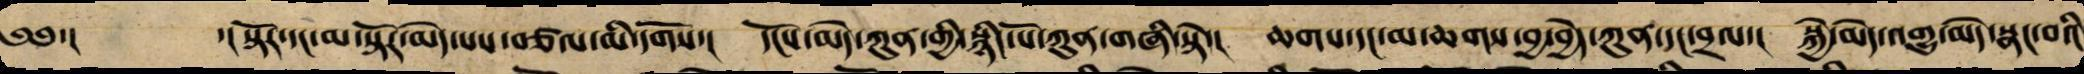༄༅་།  ་།སྟོར་དང་མ་སྟོར་མེད་པས་བཙལ་མི་དགོས་། དངོས་མེད་ཀུན་གྱི་སྙིང་པོ་ཀུན་གཞི་སྟེ་། ཆགས་དང་མ་ཆགས་བྱ་བྱེད་ཀུན་དང་བྲལ་། སྐྱེ་མེད་འགྱུ་མེད་སྣང་བའི
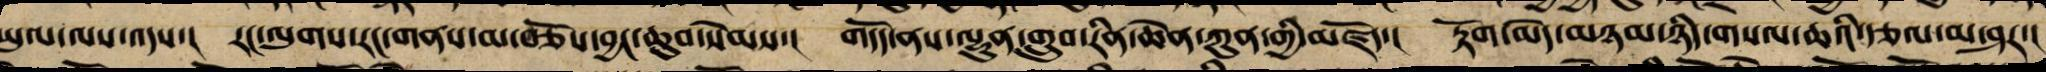ཡུལ་ལས་འདས་། རང་ལུས་རང་གནས་མ་བཅོས་བྱང་ཆུབ་སེམས་། གདོད་ནས་ལྷུན་གྲུབ་རིན་ཆེན་ཀུན་གྱི་མཛོད་། རྟོག་མེད་མཉམ་ཉིད་གསལ་ཆའི་རྩལ་མ་ཤར་།
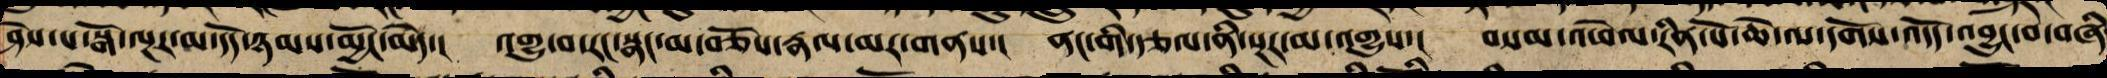ཤེས་པ་སྒོ་ལྔར་མ་དོན་ཉམས་མྱོང་མེད་། འགྱུ་བ་རང་སྣང་མ་བཅོས་རྣལ་མར་གནས་། ནང་གི་རྩལ་ནི་སྔར་མ་འགྱུས་། བསམ་འཕེལ་རིན་པོ་ཆེ་ལ་དགོས་འདོད་འབྱུང་བ་བཞི
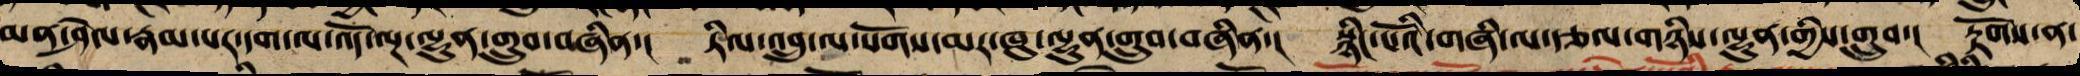མན་ཤེལ་རྣམ་པར་དག་ལས་འོད་ལྔ་ལྷུན་གྲུབ་བཞིན་། ཏིལ་འབྲུ་ལ་སོགས་མར་ཁུ་ལྷུན་གྲུབ་བཞིན་། སྙིང་པོའི་གཞི་ལ་རྩལ་གཉིས་ལྷུན་གྱིས་གྲུབ་། རྟོགས་ན་
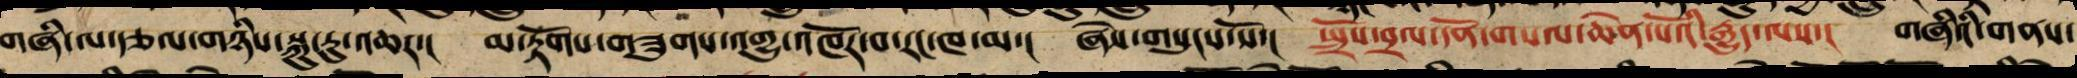གཞི་ལ་རྩལ་གཉིས་སྐུ་རུ་འཆར་། མ་རྟོགས་གཞི་ལ་འཁོར་བ་རང་ཁ་མ།་ ཞེས་གསུངས་སོ་། སྤྲོས་བྲལ་དོན་གསལ་ཆེན་པོའི་རྒྱུད་ལས་། གཞིའི་གནས་
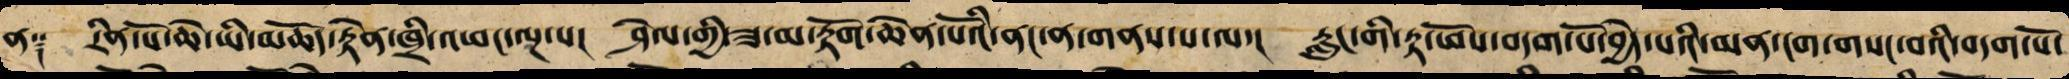ན༑ རིན་པོ་ཆེའི་མཆོད་རྟེན་ཁྲི་འཕང་ལྔ་པ་། ཤེལ་གྱི་ཟ་མ་རྟོག་ཆེན་པོའི་ནང་ན་གནས་པ་ལ་། རླུང་གི་རྟ་ཕོས་བདག་པོ་བྱེད་པའི་མན་ངག་གསང་བའི་བདག་པོ་
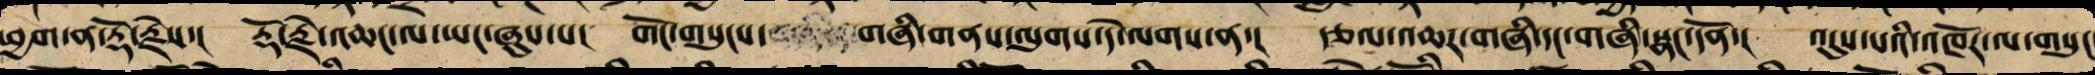ཕྱག་ན་རྡོ་རྗེས་། རྡོ་རྗེ་འཆང་ལ་ཡང་ཞུས་པ་། གོང་གསུངས་གཞི་གནས་ལུགས་དེ་ལགས་ན་། རྩལ་འཆར་གཞི་དང་གཞི་སྣང་དོན་། འདུས་པའི་འཁོར་ལ་གསུང
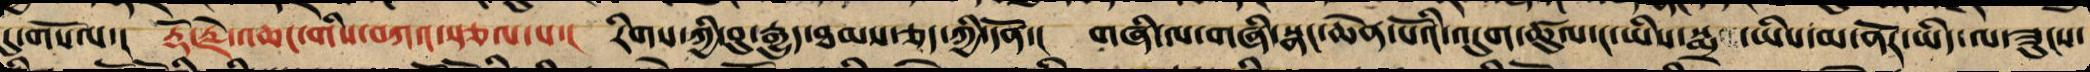དུ་གསོལ་། རྡོ་རྗེ་འཆང་གིས་བཀའ་སྩལ་པ་། རིགས་ཀྱི་བུ་རྒྱུད་ཐམས་ཅད་ཀྱི་དོན་། གཞི་དང་གཞི་སྣང་ཆེན་པོའི་འདུག་ཚུལ་ང་ཡིས་སྨྲ་ཡིས་མ་ནོར་ཡིད་ལ་ཟུངས་
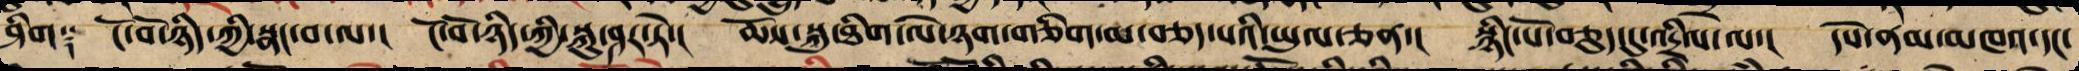ཤིག༑ ངོ་བོ་ཉིད་ཀྱི་སྣང་བ་ལ་། ངོ་བོ་ཉིད་ཀྱི་སྐུར་ཤར་ཏེ་། ཆོས་སྐུ་ཐིག་ལེ་ཉག་གཅིག་མ་བཅད་པའི་ཡུལ་ཅན་། སྙིང་པོ་བཅུད་དུ་འདྲིལ་ལ་། དཔེ་ནམ་མཁའ་དང་
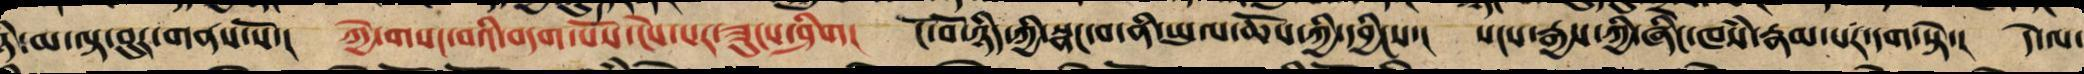ཉི་མ་ལྟ་བུར་གནས་སོ་། ཀྱེ་གསང་བའི་བདག་པོ་ངེས་པར་ཟུང་ཤིག། ངོ་བོ་ཉིད་ཀྱི་སྣང་བ་ནི་ཡུལ་ཆོས་ཀྱི་དབྱིངས་། སངས་རྒྱས་ཀྱི་ཞིང་ཁཾས་རྣམ་པར་དག་པ་སྟེ་། དེ་ལ་
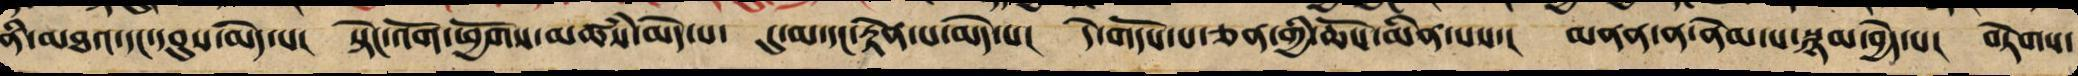ནི་མཐའ་དང་དབུས་མེད་པ་། སྟེང་འོག་ཕྱོགས་མཚཾས་མེད་པ་ དུ་མ་དང་རྟེན་པ་མེད་པ། དེ་གདོས་པ་ཅན་གྱི་ཆོས་མིན་པས་། མནན་ན་ནེམ་པ་སྙམ་བྱེད་པ། བཏེགས་
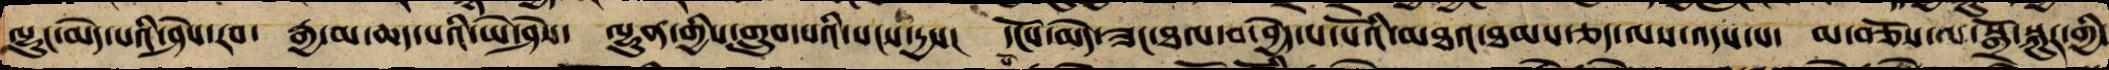ལྷུང་མེད་པའི་ཤེས་རབ་ རྒྱ་མ་ཆད་པའི་ཡེ་ཤེས་ ལྷུན་གྱིས་གྲུབ་པའི་སངས་དྱས། དངོས་མེད་ཟང་ཐལ་བ་བྱེད་པ་པོའི་མཐའ་ཐམས་ཅད་ལས་འདས་པ་ མ་བཅོས་པ་སྒྲོ་སྐུར་གྱི་
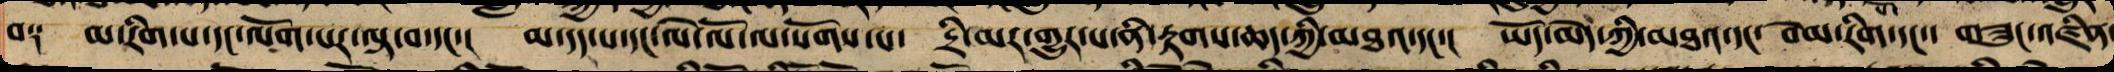བ༑ མ་རིག་པ་དང་ལོག་པར་ལྟ་བ་དང་། མ་དད་པ་དང་ལེ་ལོ་ལ་སོགས་པ་ དྲི་མར་མ་གྱུར་པ་རྟགས་ཆད་ཀྱི་མཐའ་དང་། ཡོད་མེད་ཀྱི་མཐའ་དང་ བེམ་རིག་དང་ གཟུང་འཛིན་
